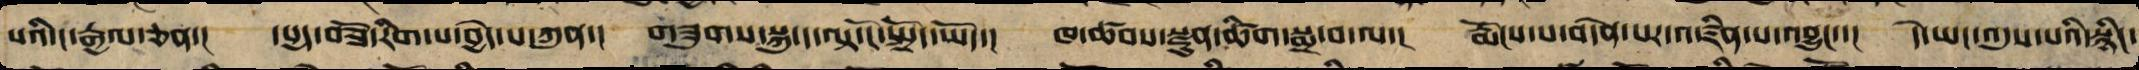པའི་ང་རྒྱལ་ཅན་། དཔྱད་བཟོ་རིག་པ་བྱེད་པ་ཀུན་། གཟུགས་སྐུ་ད་ལྟ་ངོ་སྤྲོད་ཡོད་། ཁ་ཚབ་སྫུན་ཚིག་སྨྲ་བ་ལ་། རྨོངས་པ་བདེན་པར་འཛིན་པ་འབྱུང་་། དེ་ཡང་འདུས་པའི་སྙིང་
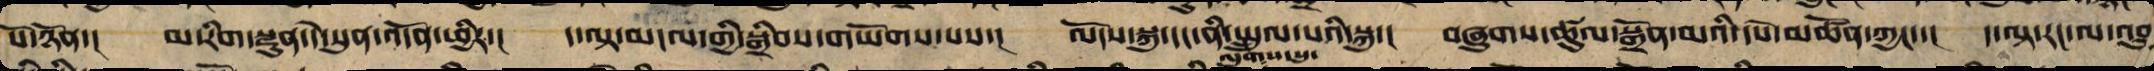པོ་ཉོན་། མ་རིག་སྫུན་དེ་སུན་འདོན་ཕྱིར་། ད་ལྟ་མངལ་གྱིས་བསྒྲིབས་གཡོགས་པས་། ལོངས་སྐུ་དང་ནི་སྤྲུལ་པའི་སྐུ་། བཞུགས་ཚུལ་སྒྲོན་མའི་དཔེ་མཚོན་ཀྱང་་། ད་ལྟ་རང་ལ་འབྱུང་
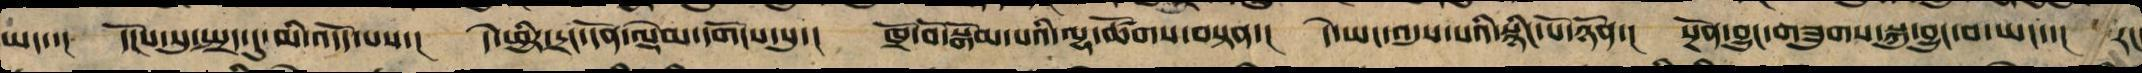ཡང་་། དངོས་སུ་སྤྲད་དུ་མི་འདོད་པས་། དེ་ཕྱིར་དྲང་དོན་ལྡེམ་དགོངས་སུ་། ཁྲོ་བོ་སྒོམ་པའི་ལྷ་ཚོགས་བསྟན་། དེ་ཡང་འདུས་པའི་སྙིང་པོ་ཉོན་། སྔོན་བྱུང་གཟུགས་སྐུ་བྱུང་བ་ཡང་་། རང་
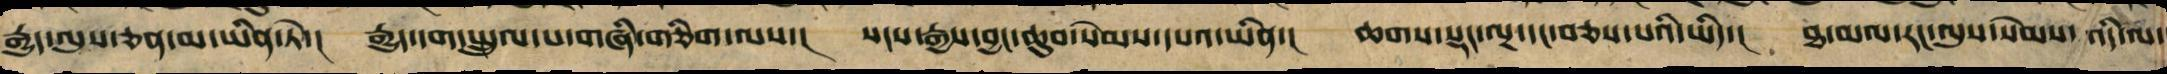རྒྱུད་ལུས་ཅན་མ་ཡིན་ཏེ་། རྒྱུད་དག་སྤྲུལ་པ་གཞི་གཅིག་ལས་། སངས་རྒྱས་བྱང་ཆུབ་སེམས་དཔའ་ཡིན་། ཆགས་སྡང་ལྔ་དང་བཅས་པའི་ཡིད་། ཐ་མལ་རང་ལུས་སེམས་འདི་ལ་
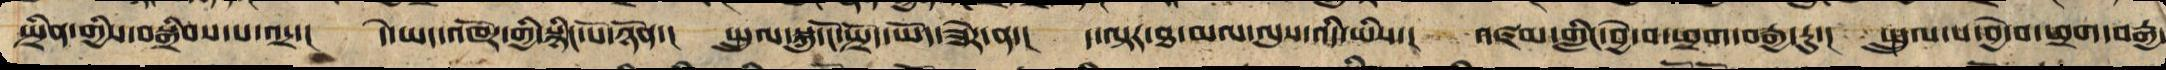སྤྲིན་གྱིས་བསྒྲིབས་པ་འདྲ་། དེ་ཡང་འཁོར་གྱི་སྙིང་པོ་ཉོན་། སྤྲུལ་སྐུ་ངོ་སྤྲོད་ཡོད་ཟེར་ན་། ད་ལྟ་ཐ་མལ་ལུས་འདི་ཡིས་། འཛམ་གླིང་བྱེ་བ་ཕྲག་བརྒྱ་རུ་། སྤྲུལ་པ་བྱེ་བ་ཕྲག་བརྒྱ་
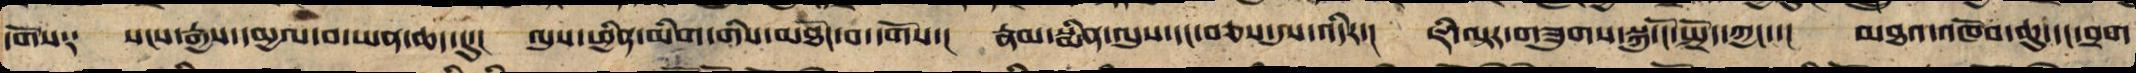དགོས༑ སངས་རྒྱས་དམྱལ་བ་ཡན་ཆད་དུ་། ལུས་ཀྱི་མིག་གིས་མཐོང་བ་དགོས་། རྣམ་སྨིན་ལུས་དང་བཅས་དུས་འདིར་། ཇི་ལྟར་གཟུགས་སྐུ་ངོ་སྤྲད་ཀྱང་་། མཐའ་འཁོབ་ཆུ་དང་བྲག་
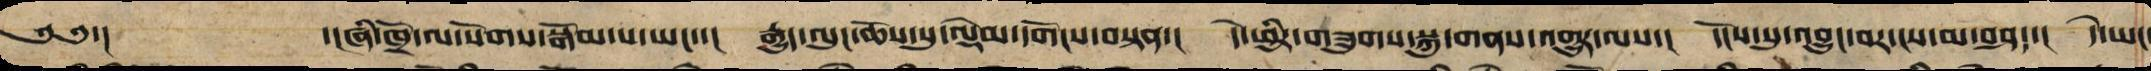༄༅་། ་།ཞི་ཁྲོ་ལ་སོགས་སྒོམ་པ་ཡང་་། རྒྱུད་ལུང་ཆོས་སུ་ལྡེམ་དགོངས་བསྟན་། དེ་ཕྱིར་གཟུགས་སྐུ་གནས་འགྱུར་ལས་། དངོས་སུ་འབྱུང་བར་ངས་མ་བཤ་ད། དེ་ཡང་
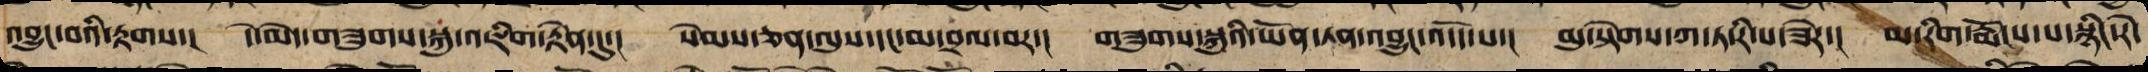འབྱུང་བའི་རྟགས་། དེ་མེད་གཟུགས་སྐུ་འཇིག་རྟེན་དུ་། སེམས་ཅན་ལུས་དང་མ་བྲལ་བར་། གཟུགས་སྐུའི་ཡོན་ཏན་འབྱུང་འདོད་པ་། མུ་སྟེགས་ཀ་ཏ་རི་པ་ཟེར་། མ་རིག་རྨོངས་པ་སྙིང་རེ་
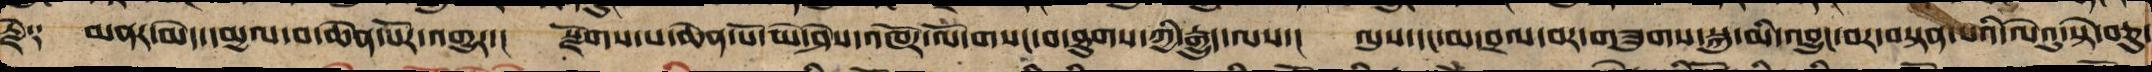རྗེ༑ མནར་མེད་དམྱལ་བ་ཆེན་པོར་འགྱུར་། སྫོགས་པ་ཆེན་པོ་ཡེ་ཤེས་འཁོར་ལོ་གསང་བ་ཐུགས་ཀྱི་རྒྱུད་ལས་། ལུས་དང་མ་བྲལ་བར་གཟུགས་སྐུ་མི་འབྱུང་བར་བསྟན་པའི་ལེའུ་སྟེ་བཅུ་
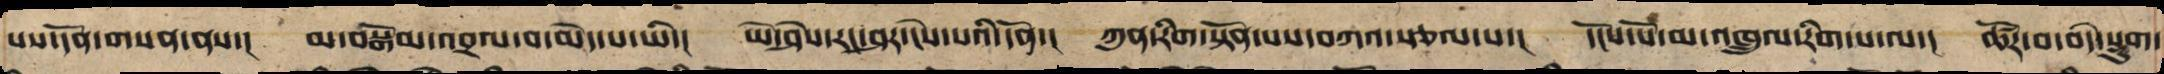བའི་དོན་གསན་ནས་། མ་བསྒོམས་འབྲལ་བ་མེད་པ་ཡི་། ཡེ་ཤེས་རང་ཤར་ངེས་པའི་དོན་།  ཀུན་རིག་སྟོན་པས་བཀའ་སྩལ་པ་། དངོས་པོ་མ་འཁྲུལ་རིག་པ་ལ་། ཚོར་བ་བདེ་སྡུག་
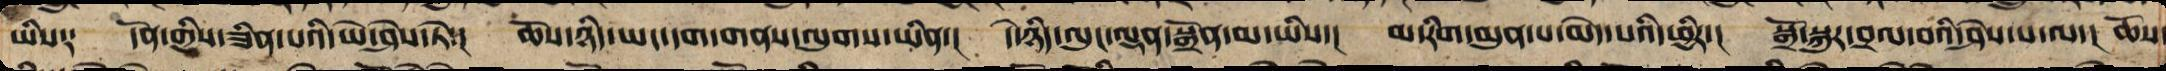ཡིས༑ དོན་གྱིས་ཟིན་པའི་ཡེ་ཤེས་ཏེ་། ཆོས་ཉིད་ཡང་དག་གནས་ལུགས་ཡིན་། དེ་ཉིད་ལུང་ལྡན་སྒྲོན་མ་ཡིས་། མ་རིག་མུན་པ་མེད་པའི་ཕྱིར་། སྒྲོ་སྐུར་བྲལ་བའི་ཤེས་པ་ལ་། ཆོས་
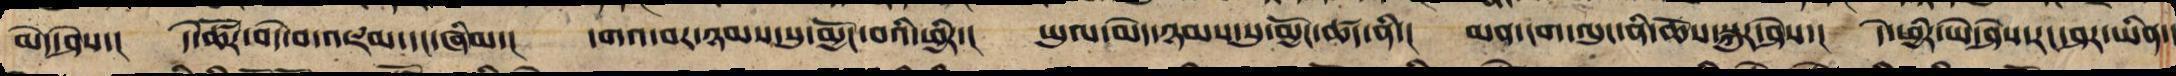མེད་ཤེས་། དེ་ཚོར་བདེ་བ་འཇམ་དང་ཞིམ་། དགའ་བ་ཉམས་སུ་མྱོང་བའི་ཕྱིར་། ཡུལ་མེད་ཉམས་སུ་མྱོང་ཚད་ནི་། མན་ངག་ལུང་ནི་ཆོས་སྐུར་ཤེས་། དེ་ཕྱིར་ཡེ་ཤེས་རང་ཤར་ཡིན་།
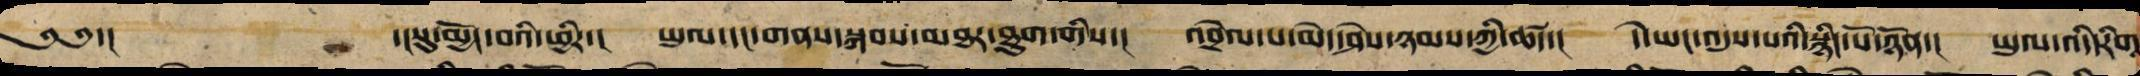༄༅་།  ་།སུ་མྱོང་བའི་ཕྱིར་། ཡུལ་དང་གནས་སྐབས་མཐར་ཐུག་གི་། འབྲེལ་བ་མེད་ཤེས་ཉམས་ཀྱི་ཚད་། དེ་ཡང་འདུས་པའི་སྙིང་པོ་ཉོན་། ཡུལ་འདི་རིག་
